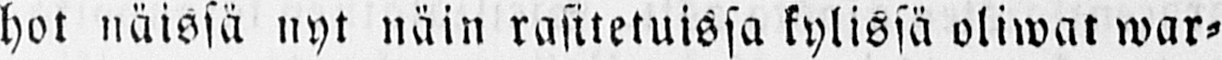hot näissä nyt näin rasitetuissa kylissä oliwat war-
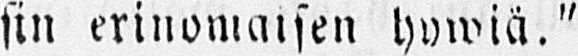sin erinomaisen hywiä."
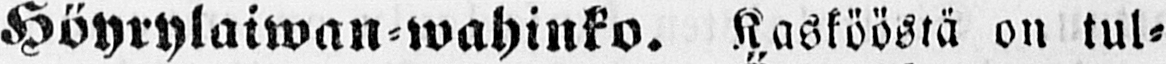Höyrylaiwan - wahinko. Kaskööstä on tul-
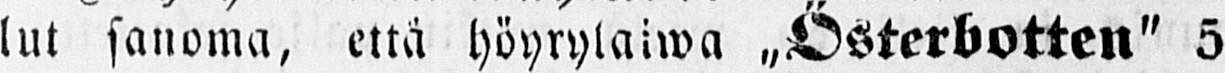lut sanoma, että höyrylaiwa „Österbotten" 5
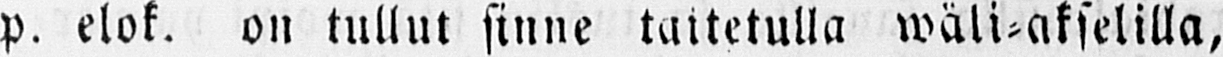p. elok. on tullut sinne taitetulla wäli-akselilla,
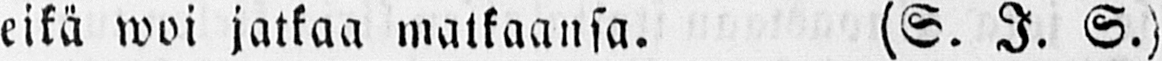eikä woi jatkaa matkaansa. (S. I. S.)
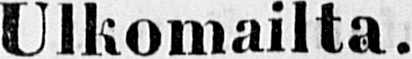Ulkomailta.
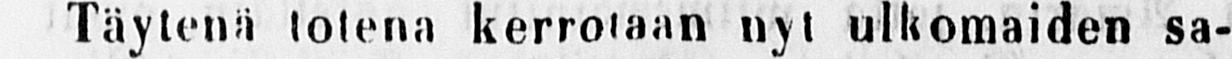Täytenä totena kerrotaan nyt ulkomaiden sa-
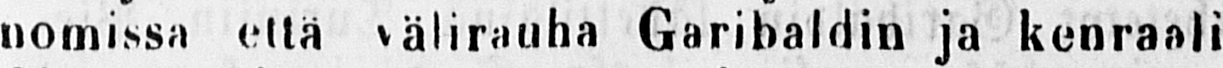nomissa että välirauha Garihaldin ja kenraali
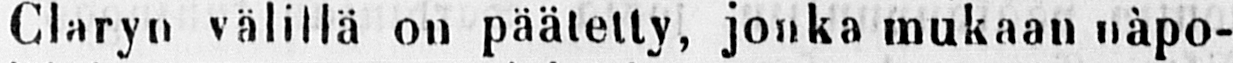Claryn välillä on päätetty, jonka mukaan nàpo-
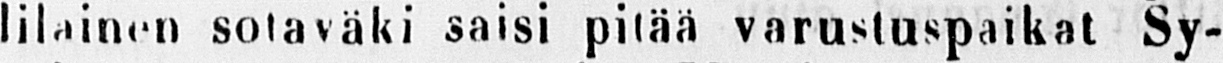lilainen sotaväki saisi pitää varustuspaikat Sy-
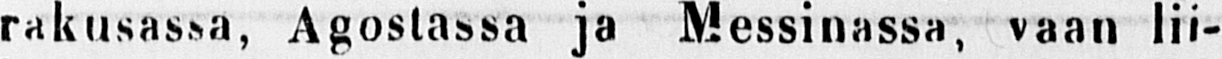rakusassa, Agostassa ja Messinassa, vaan lii-
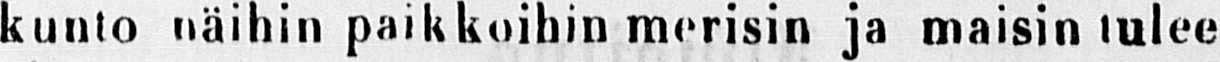kunto näihin paikkoihin merisin ja maisin tulee
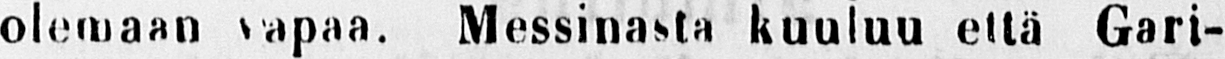olemaan vapaa. Messinasta kuuluu että Gari-
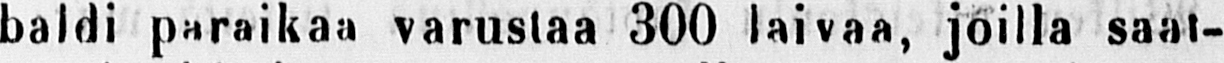baldi paraikaa varustaa 300 laivaa, joilla saat-
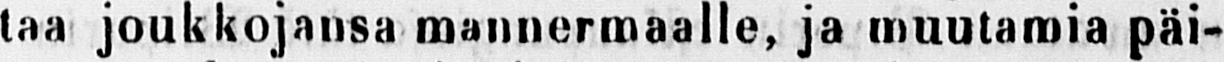taa joukkojansa mannermaalle, ja muutamia päi-
